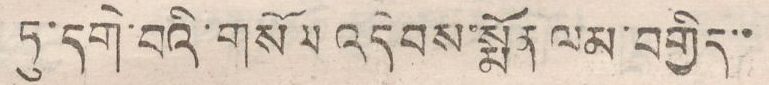ཏུ་དགེ་བའི་གསོལ འདེབས་སྨོན ལམ་བགྱིད་་
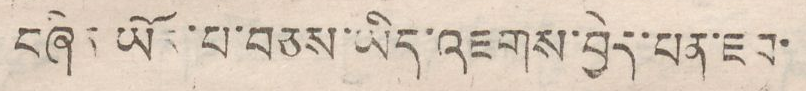བཞིན ཡོད་པ་བཅས་ཡིད་འཇགས་བྱེད་པན་ཇབ་
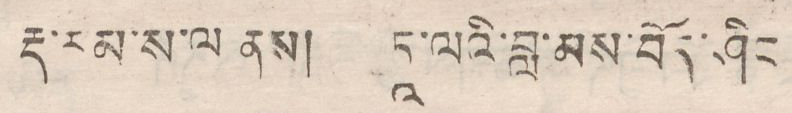རྡ་རམ་ས་ལ ནས། ཏཱ་ལའི་བླ་མ་བོད་ཤིང
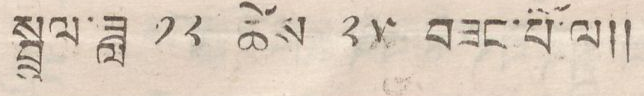སྦྲུལ་ཟླ ༡༢ ཚེས ༢༥ བཟང་པོ་ལ།།
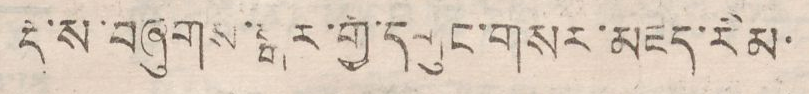རྡ་ས་བཞུགས་སྒར་གྱི་དགུང་གསར་མཛད་རིན་
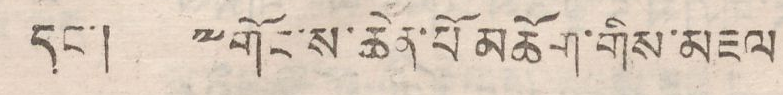དང་། ༸གོང་ས་ཆེན་པོ མཆོག་གིས་མཇལ
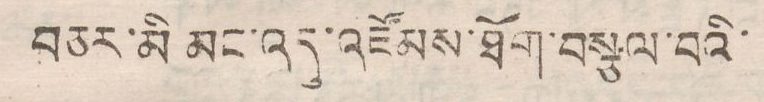བཅར་མི མང་འདུ་འཛོམས་ཐོག་བསྩལ་བའི་
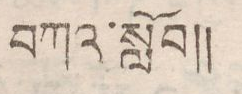བཀའ་སློབ།།
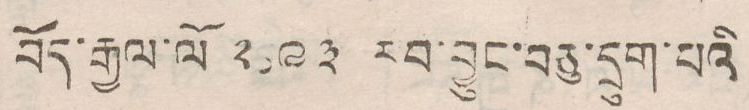བོད་རྒྱལ་ལོ ༢༦༩༣ རབ་བྱུང་བཅུ་དྲུག་པའི
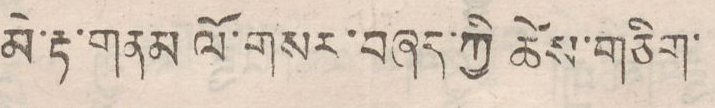མེ་རྟ་གནམ་ལོ་གསར་བཞད་ཀྱི ཚེས་གཅིག་
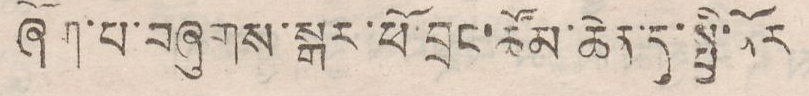ཞོག་པ་བཞུགས་སྒར་ཕོ་བྲང་ཚོམ་ཆེད་དུ་སྤྱི་ནོར
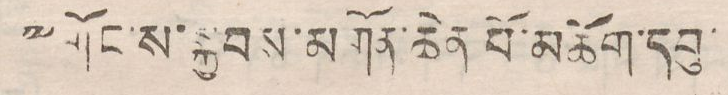༸གོང་ས་སྐྱབས་མགོན་ཆེན་པོ་མཆོག་དབུ་
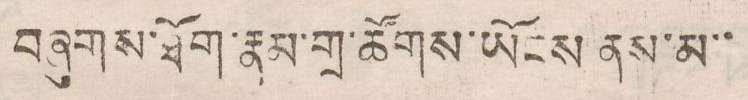བཞུགས་ཐོག་རྣམ་གྲ་ཚོགས་ཡོངས ནས་མ་་
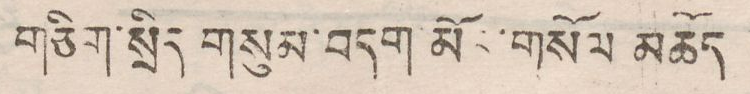གཅིག་སྲིད གསུམ་བདག་མོར་གསོལ མཆོད
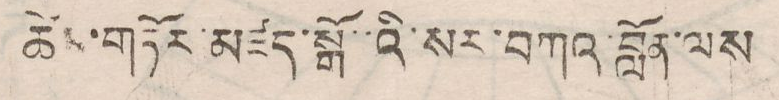ཚེས་གཏོར་མཛད་སྒོ་་འི་སར་བཀའ་བློན་ལས
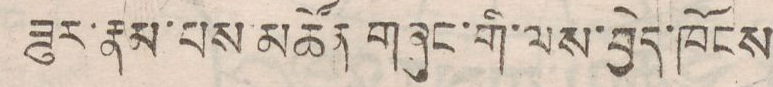ཟུར་རྣམ་པས་མཚོན་གཞུང་གུ་ལས་བྱེད་ཁོངས
